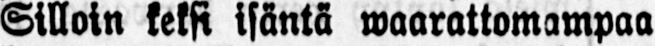Silloin keksi isäntä waarattomampaa
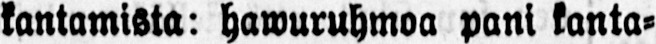kantamista: hawuruhmoa pani kanta-
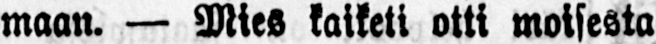maan. — Mies kaiketi otti moisesta
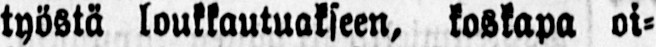työstä loukkautuakseen, koskapa oi-
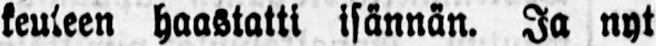keuteen haastatti isännän. Ja nyt
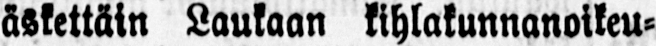äskettäin Laukaan kihlakunnanoikeu-
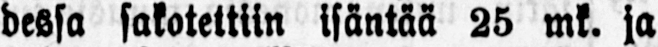dessa sakotettiin isäntää 25 mk. ja
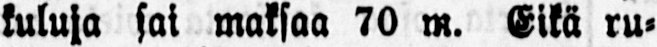kuluja sai maksaa 70 m. Eikä ru-
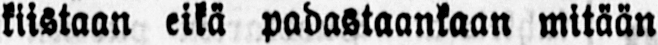kiistaan eikä padastaankaan mitään
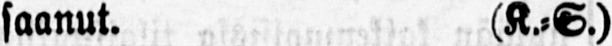saanut. (K.-S.)
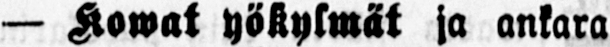— Kowat yökylmät ja ankara
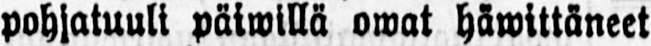pohjatuuli päiwillä owat häwittäneet
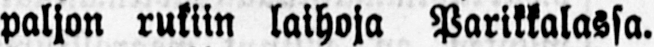paljon rukiin laihoja Parikkalassa.
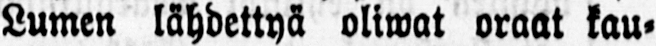Lumen lähdettyä oliwat oraat kau-
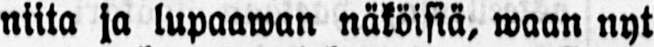niita ja lupaawan näköisiä, waan nyt
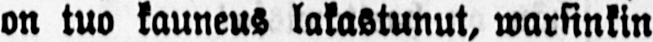on tuo kauneus lakastunut, warsinkin
